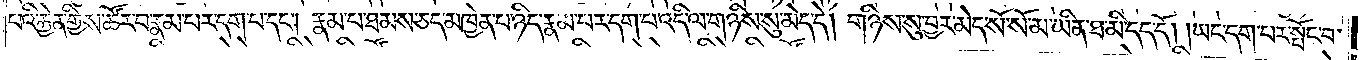པའི་རྐྱེན་གྱིས་ཚོར་བ་རྣམ་པར་དག་པ་དང༌། རྣམ་པ་ཐམས་ཅད་མཁྱེན་པ་ཉིད་རྣམ་པར་དག་པ་འདི་ལ་གཉིས་སུ་མེད་དེ། གཉིས་སུ་བྱར་མེད་སོ་སོ་མ་ཡིན་ཐ་མི་དད་དོ། །ཡང་དག་པར་སྤོང་བ་
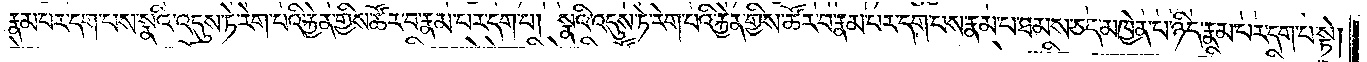རྣམ་པར་དག་པས་སྣའི་འདུས་ཏེ་རེག་པའི་རྐྱེན་གྱིས་ཚོར་བ་རྣམ་པར་དག་པ། སྣའི་འདུས་ཏེ་རེག་པའི་རྐྱེན་གྱིས་ཚོར་བ་རྣམ་པར་དག་པས་རྣམ་པ་ཐམས་ཅད་མཁྱེན་པ་ཉིད་རྣམ་པར་དག་པ་སྟེ།
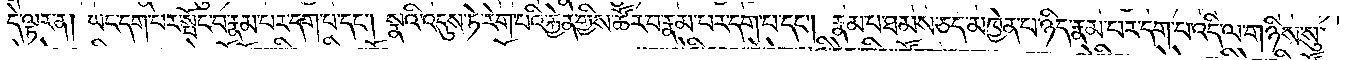དེ་ལྟར་ན། ཡང་དག་པར་སྤོང་བ་རྣམ་པར་དག་པ་དང༌། སྣའི་འདུས་ཏེ་རེག་པའི་རྐྱེན་གྱིས་ཚོར་བ་རྣམ་པར་དག་པ་དང༌། རྣམ་པ་ཐམས་ཅད་མཁྱེན་པ་ཉིད་རྣམ་པར་དག་པ་འདི་ལ་གཉིས་སུ་
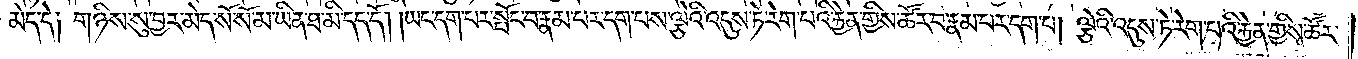མེད་དེ༑ གཉིས་སུ་བྱར་མེད་སོ་སོ་མ་ཡིན་ཐ་མི་དད་དོ། །ཡང་དག་པར་སྤོང་བ་རྣམ་པར་དག་པས་ལྕེའི་འདུས་ཏེ་རེག་པའི་རྐྱེན་གྱིས་ཚོར་བ་རྣམ་པར་དག་པ། ལྕེའི་འདུས་ཏེ་རེག་པའི་རྐྱེན་གྱིས་ཚོར་
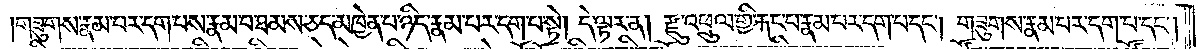གཟུགས་རྣམ་པར་དག་པས་རྣམ་པ་ཐམས་ཅད་མཁྱེན་པ་ཉིད་རྣམ་པར་དག་པ་སྟེ། དེ་ལྟར་ན། རྫུ་འཕྲུལ་གྱི་རྐང་པ་རྣམ་པར་དག་པ་དང༌། གཟུགས་རྣམ་པར་དག་པ་དང༌།
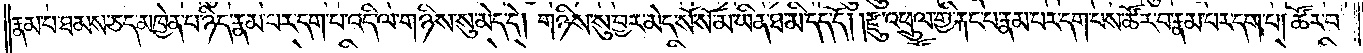རྣམ་པ་ཐམས་ཅད་མཁྱེན་པ་ཉིད་རྣམ་པར་དག་པ་འདི་ལ་གཉིས་སུ་མེད་དེ། གཉིས་སུ་བྱར་མེད་སོ་སོ་མ་ཡིན་ཐ་མི་དད་དོ། །རྫུ་འཕྲུལ་གྱི་རྐང་པ་རྣམ་པར་དག་པས་ཚོར་བ་རྣམ་པར་དག་པ། ཚོར་བ་
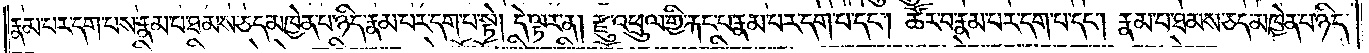རྣམ་པར་དག་པས་རྣམ་པ་ཐམས་ཅད་མཁྱེན་པ་ཉིད་རྣམ་པར་དག་པ་སྟེ། དེ་ལྟར་ན། རྫུ་འཕྲུལ་གྱི་རྐང་པ་རྣམ་པར་དག་པ་དང༌། ཚོར་བ་རྣམ་པར་དག་པ་དང༌། རྣམ་པ་ཐམས་ཅད་མཁྱེན་པ་ཉིད་
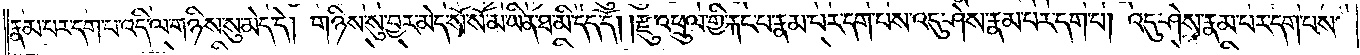རྣམ་པར་དག་པ་འདི་ལ་གཉིས་སུ་མེད་དེ། གཉིས་སུ་བྱར་མེད་སོ་སོ་མ་ཡིན་ཐ་མི་དད་དོ། །རྫུ་འཕྲུལ་གྱི་རྐང་པ་རྣམ་པར་དག་པས་འདུ་ཤེས་རྣམ་པར་དག་པ། འདུ་ཤེས་རྣམ་པར་དག་པས་
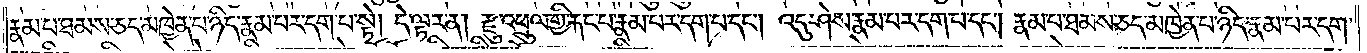རྣམ་པ་ཐམས་ཅད་མཁྱེན་པ་ཉིད་རྣམ་པར་དག་པ་སྟེ། དེ་ལྟར་ན། རྫུ་འཕྲུལ་གྱི་རྐང་པ་རྣམ་པར་དག་པ་དང༌། འདུ་ཤེས་རྣམ་པར་དག་པ་དང༌། རྣམ་པ་ཐམས་ཅད་མཁྱེན་པ་ཉིད་རྣམ་པར་དག་
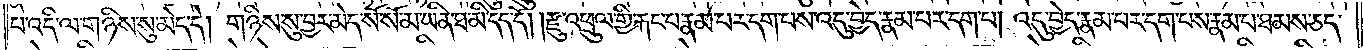པ་འདི་ལ་གཉིས་སུ་མེད་དེ། གཉིས་སུ་བྱར་མེད་སོ་སོ་མ་ཡིན་ཐ་མི་དད་དོ། །རྫུ་འཕྲུལ་གྱི་རྐང་པ་རྣམ་པར་དག་པས་འདུ་བྱེད་རྣམ་པར་དག་པ། འདུ་བྱེད་རྣམ་པར་དག་པས་རྣམ་པ་ཐམས་ཅད་
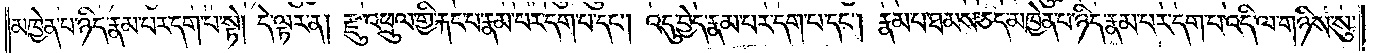མཁྱེན་པ་ཉིད་རྣམ་པར་དག་པ་སྟེ། དེ་ལྟར་ན། རྫུ་འཕྲུལ་གྱི་རྐང་པ་རྣམ་པར་དག་པ་དང༌། འདུ་བྱེད་རྣམ་པར་དག་པ་དང༌། རྣམ་པ་ཐམས་ཅད་མཁྱེན་པ་ཉིད་རྣམ་པར་དག་པ་འདི་ལ་གཉིས་སུ་
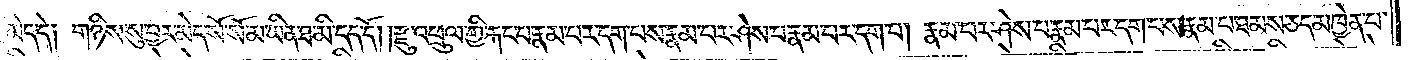མེད་དེ༑ གཉིས་སུ་བྱར་མེད་སོ་སོ་མ་ཡིན་ཐ་མི་དད་དོ། །རྫུ་འཕྲུལ་གྱི་རྐང་པ་རྣམ་པར་དག་པས་རྣམ་པར་ཤེས་པ་རྣམ་པར་དག་པ། རྣམ་པར་ཤེས་པ་རྣམ་པར་དག་པས་རྣམ་པ་ཐམས་ཅད་མཁྱེན་པ་
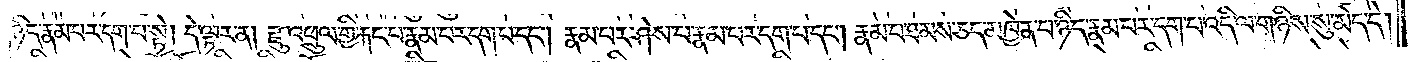ཉིད་རྣམ་པར་དག་པ་སྟེ། དེ་ལྟར་ན། རྫུ་འཕྲུལ་གྱི་རྐང་པ་རྣམ་པར་དག་པ་དང༌། རྣམ་པར་ཤེས་པ་རྣམ་པར་དག་པ་དང༌། རྣམ་པ་ཐམས་ཅད་མཁྱེན་པ་ཉིད་རྣམ་པར་དག་པ་འདི་ལ་གཉིས་སུ་མེད་དེ།
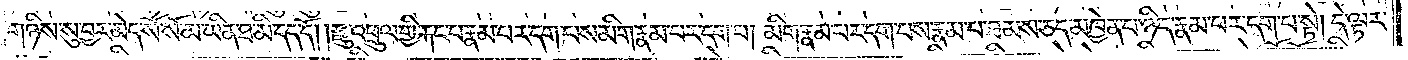གཉིས་སུ་བྱར་མེད་སོ་སོ་མ་ཡིན་ཐ་མི་དད་དོ། །རྫུ་འཕྲུལ་གྱི་རྐང་པ་རྣམ་པར་དག་པས་མིག་རྣམ་པར་དག་པ། མིག་རྣམ་པར་དག་པས་རྣམ་པ་ཐམས་ཅད་མཁྱེན་པ་ཉིད་རྣམ་པར་དག་པ་སྟེ། དེ་ལྟར་
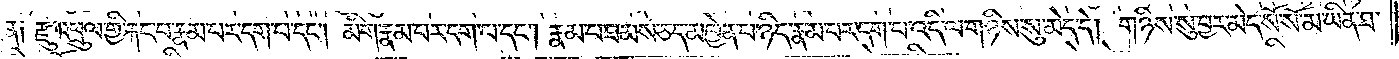ན༑ རྫུ་འཕྲུལ་གྱི་རྐང་པ་རྣམ་པར་དག་པ་དང༌། མིག་རྣམ་པར་དག་པ་དང༌། རྣམ་པ་ཐམས་ཅད་མཁྱེན་པ་ཉིད་རྣམ་པར་དག་པ་འདི་ལ་གཉིས་སུ་མེད་དེ། གཉིས་སུ་བྱར་མེད་སོ་སོ་མ་ཡིན་ཐ་
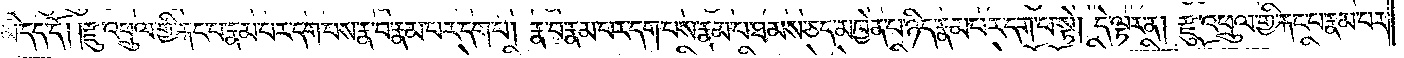མི་དད་དོ། །རྫུ་འཕྲུལ་གྱི་རྐང་པ་རྣམ་པར་དག་པས་རྣ་བ་རྣམ་པར་དག་པ། རྣ་བ་རྣམ་པར་དག་པས་རྣམ་པ་ཐམས་ཅད་མཁྱེན་པ་ཉིད་རྣམ་པར་དག་པ་སྟེ། དེ་ལྟར་ན། རྫུ་འཕྲུལ་གྱི་རྐང་པ་རྣམ་པར་
